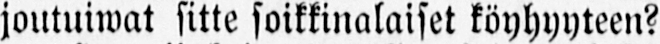joutuiwat sitte soikkinalaiset köyhyyteen?
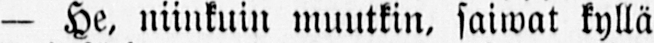— He, niinkuin muutkin, saiwat kyllä
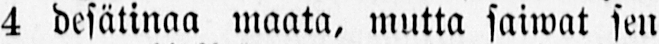4 desätinaa maata, mutta saiwat sen
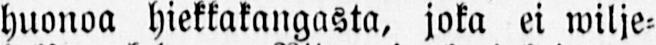huonoa hiekkakangasta, joka ei wilje-
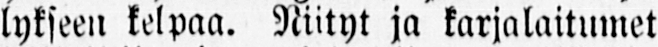tykseen kelpaa. Niityt ja karjalaitumet
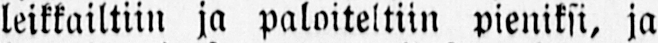leikkailtiin ja paloiteltiin pieniksi, ja
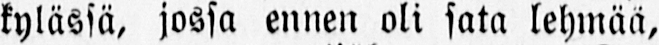kylässä, jossa ennen oli sata lehmää,
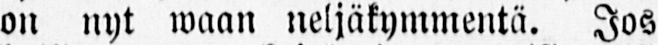on nyt waan neljäkymmentä. Jos
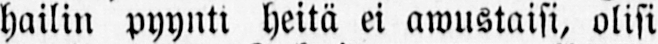hailin pyynti heitä ei awustaisi, olisi
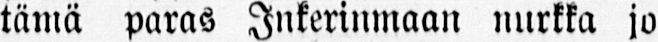tämä paras Inkerinmaan nurkka jo
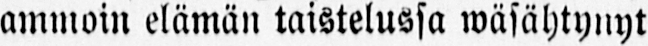ammoin elämän taistelussa wäsähtynyt
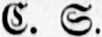C. S.
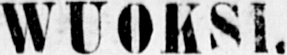WUOKSI.
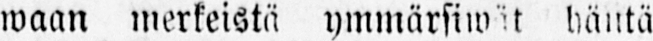waan merkeistä ymmärsiwät häntä
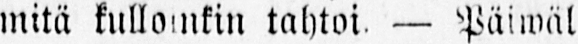mitä kulloinkin tahtoi. — Päiwäl
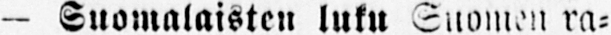— Suomalaisten luku Suomen ra-
